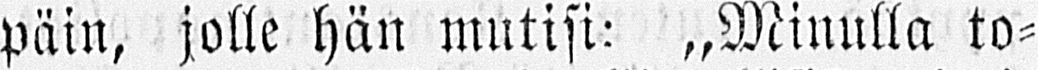päin, jolle hän mutisi: „Minulla to-
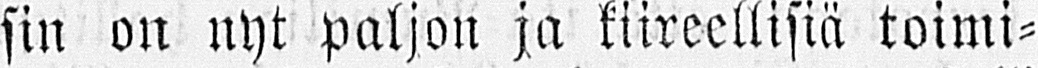sin on nyt paljon ja kiireellisiä toimi-
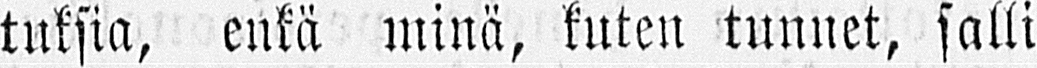tuksia, enkä minä, kuten tunnet, salli
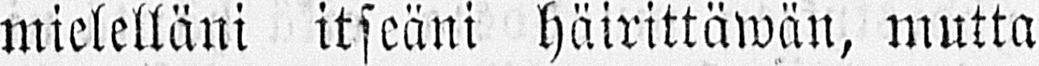mielelläni itseäni häirittäwän, mutta
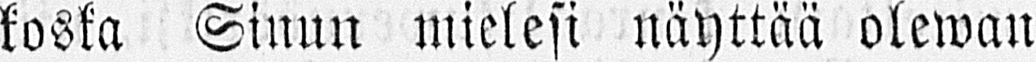koska Sinun mielesi näyttää olewan
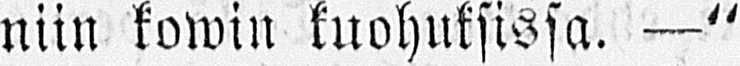niin kowin kuohuksissa. —"
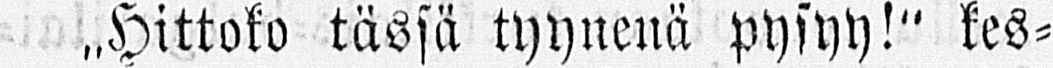˶Hittoko tässä tyynenä pysyy!" kes-
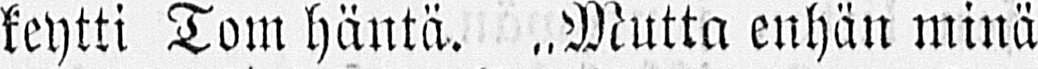keytti Tom häntä. ˶Mutta enhän minä
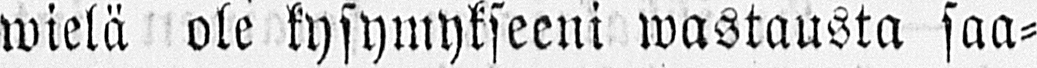wielä ole kysymykseeni wastausta saa-
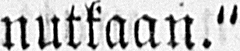nutkaan."
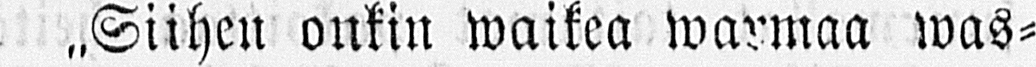˶Siihen onkin waikea warmaa was-
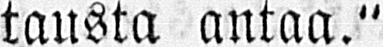tausta antaa."
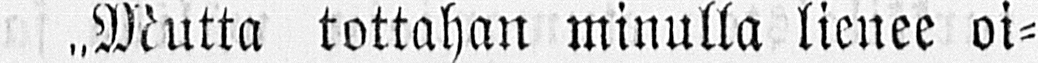˶Mutta tottahan minulla lienee oi-
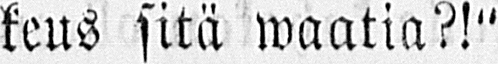keus sitä waatia?!"
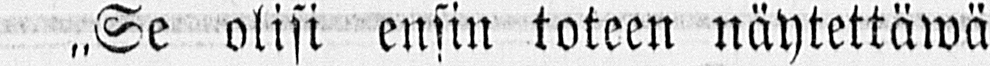˶Se olisi ensin toteen näytettäwä,"
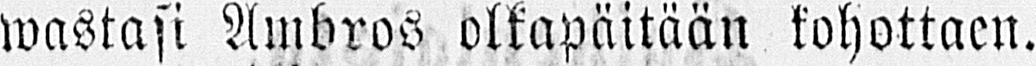wastasi Ambros olkapäitään kohottaen.
